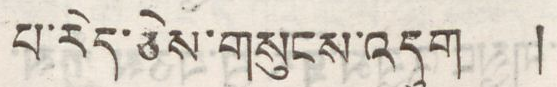པ་རེད་ཅེས་གསུངས་འདུག །
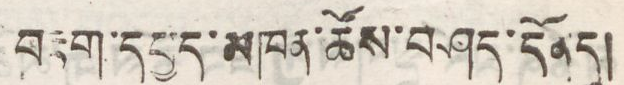བརྟག་དཔྱད་མཁན་ཚོས་བཤད་དོན་དུ།
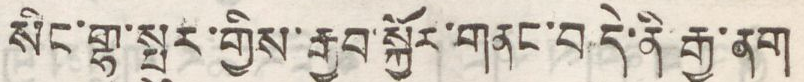སིང་གྷ་སྤུར་གྱིས་རྒྱབ་སྐྱོར་གནང་བ་དེ་ནི་རྒྱ་ནག
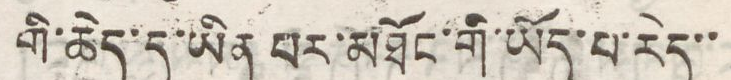གི་ཆེད་དུ་ཡིན་པར་མཐོང་གི་ཡོད་པ་རེད་་
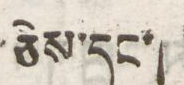ཅེས་དང་།
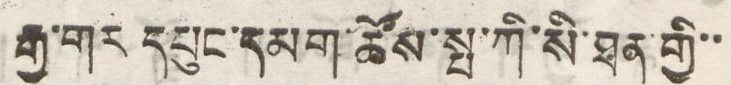རྒྱ་གར་དཔུང་དམག་ཚོས་སྤ་ཀི་སི་ཐན་གྱི་་
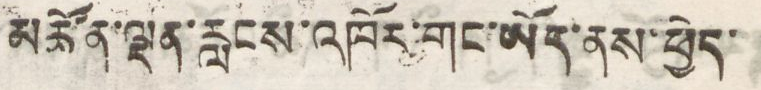མཚོན་ལྡན་རླངས་འཁོར་གང་ཡོད་ནས་ཕྱེད་
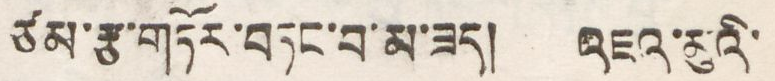ཙམ་རྩ་གཏོར་བཏང་བ་མ་ཟད། འཇའ་མུའི་
